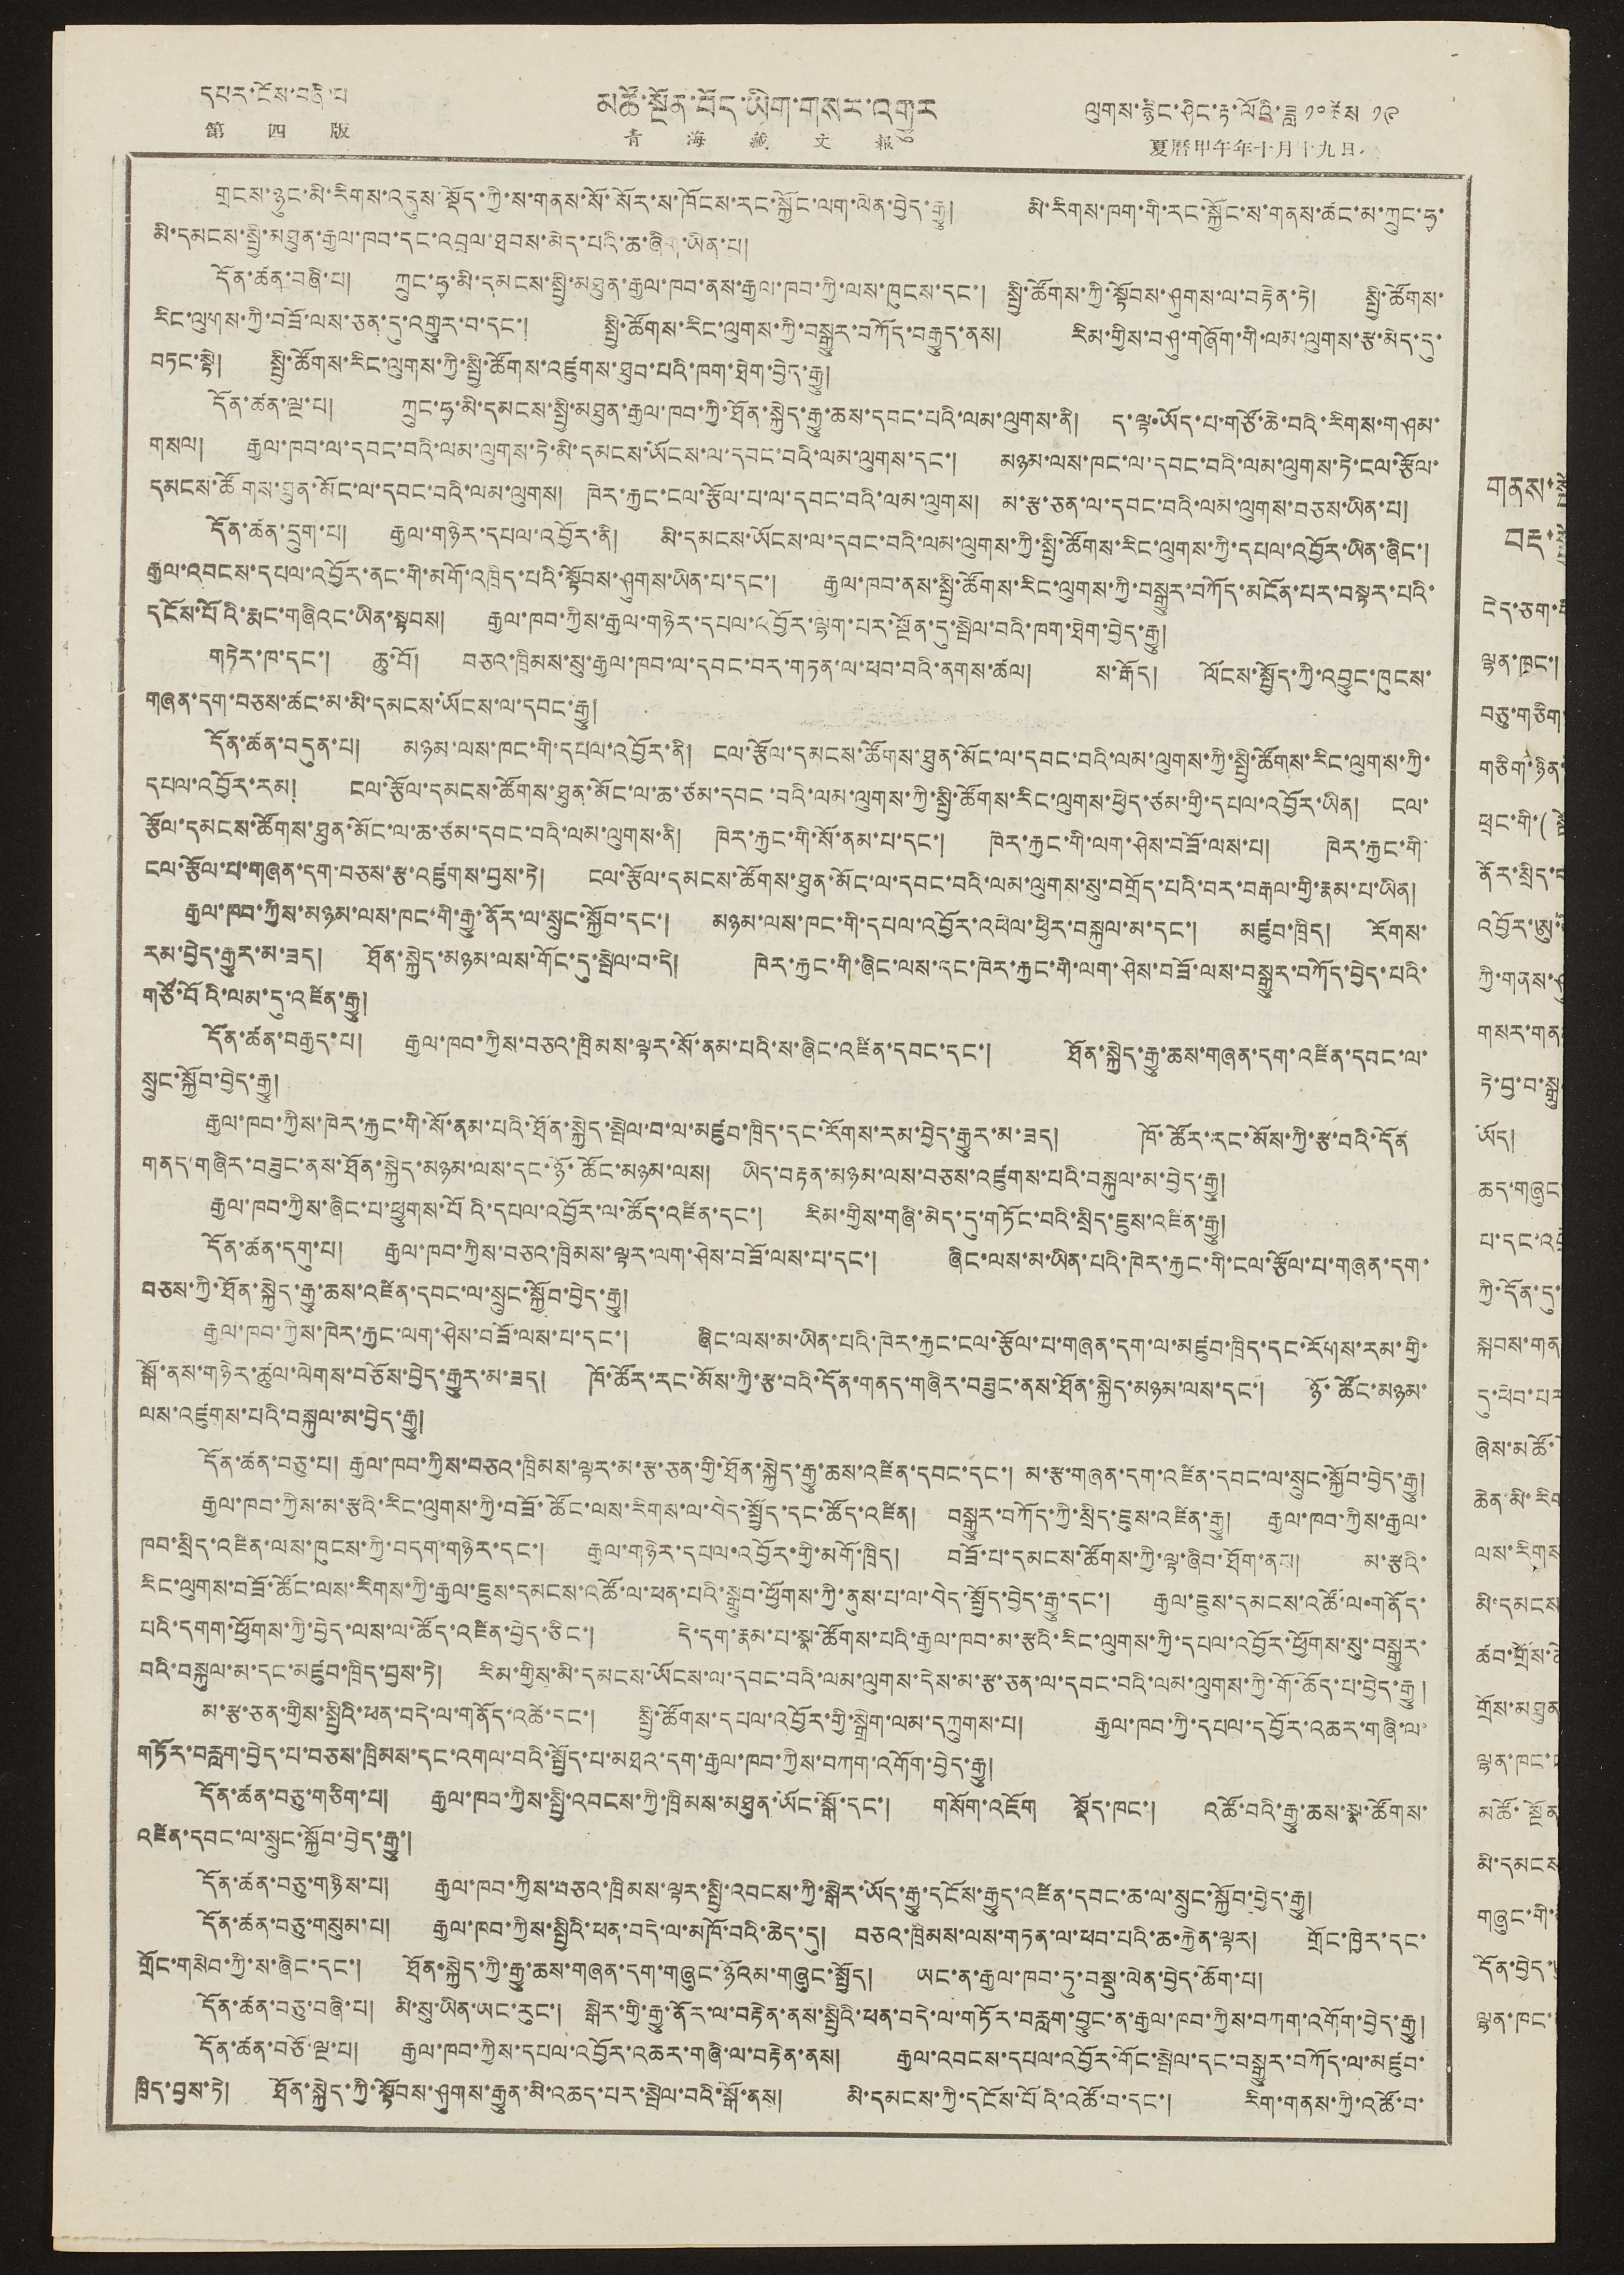དཔར་ངོས་བཞི་པ མཚོ་སྔོན་བོད་ཡིག་གསར་འགྱུར ལུགས་རྙིང་ཤིང་རྟ་ལོའི་ཟླ ༡༠ཚེས ༡༩
第 四 版 青 海 藏 文 報 夏曆甲午年十月十九日
གྲངས་ཉུང་མི་རིགས་འདུས་སྡོད་ཀྱི་ས་གནས་སོ་སོར་ས་ཁོངས་རང་སྐྱོང་ལག་ལེན་བྱེད་རྒྱུ། མི་རིགས་ཁག་གི་རང་སྐྱོང་ས་གནས་ཚང་མ་ཀྲུང་ཧྭ་
མི་དམངས་སྤྱི་མཐུན་རྒྱལ་ཁབ་དང་འབྲལ་ཐབས་མེད་པའི་ཆ་ཞིག་ཡིན་པ།
དོན་ཚན་བཞི་པ། ཀྲུང་ཧྭ་མི་དམངས་སྤྱི་མཐུན་རྒྱལ་ཁབ་ནས་རྒྱལ་ཁབ་ཀྱི་ལས་ཁུངས་དང་། སྤྱི་ཚོགས་ཀྱི་སྟོབས་ཤུགས་ལ་བརྟེན་ཏེ། སྤྱི་ཚོགས་
རིང་ལུགས་ཀྱི་བཟོ་ལས་ཅན་དུ་འགྱུར་བ་དང་། སྤྱི་ཚོགས་རིང་ལུགས་ཀྱི་བསྒྱུར་བཀོད་བརྒྱུད་ནས། རིམ་གྱིས་བཤུ་གཞོག་གི་ལམ་ལུགས་རྩ་མེད་དུ་
བཏང་སྟེ། སྤྱི་ཚོགས་རིང་ལུགས་ཀྱི་སྤྱི་ཚོགས་འཛུགས་ཐུབ་པའི་ཁག་ཐེག་བྱེད་རྒྱུ།
དོན་ཚན་ལྔ་པ། ཀྲུང་ཧྭ་མི་དམངས་སྤྱི་མཐུན་རྒྱལ་ཁབ་ཀྱི་ཐོན་སྐྱེད་རྒྱུ་ཆས་དབང་པའི་ལམ་ལུགས་ནི། ད་ལྟ་ཡོད་པ་གཙོ་ཆེ་བའི་རིགས་གཤམ་
གསལ། རྒྱལ་ཁབ་ལ་དབང་བའི་ལམ་ལུགས་ཏེ་མི་དམངས་ཡོངས་ལ་དབང་བའི་ལམ་ལུགས་དང་། མཉམ་ལས་ཁང་ལ་དབང་བའི་ལམ་ལུགས་ཏེ་ངལ་རྩོལ་
དམངས་ཚོགས་ཐུན་མོང་ལ་དབང་བའི་ལམ་ལུགས། ཁེར་རྐྱང་ངལ་རྩོལ་པ་ལ་དབང་བའི་ལམ་ལུགས། མ་རྩ་ཅན་ལ་དབང་བའི་ལམ་ལུགས་བཅས་ཡིན་པ།
དོན་ཚན་དྲུག་པ། རྒྱལ་གཉེར་དཔལ་འབྱོར་ནི། མི་དམངས་ཡོངས་ལ་དབང་བའི་ལམ་ལུགས་ཀྱི་སྤྱི་ཚོགས་རིང་ལུགས་ཀྱི་དཔལ་འབྱོར་ཡིན་ཞིང་།
རྒྱལ་འབངས་དཔལ་འབྱོར་ནང་གི་མགོ་འཁྲིད་པའི་སྟོབས་ཤུགས་ཡིན་པ་དང་། རྒྱལ་ཁབ་ནས་སྤྱི་ཚོགས་རིང་ལུགས་ཀྱི་བསྒྱུར་བཀོད་མངོན་པར་བསྟར་པའི་
དངོས་པོའི་རྨང་གཞིའང་ཡིན་སྟབས། རྒྱལ་ཁབ་ཀྱིས་རྒྱལ་གཉེར་དཔལ་འབྱོར་ལྷག་པར་སྔོན་དུ་སྤེལ་བའི་ཁག་ཐེག་བྱེད་རྒྱུ།
གཏེར་ཁ་དང་། ཆུ་བོ། བཅའ་ཁྲིམས་སུ་རྒྱལ་ཁབ་ལ་དབང་བར་གཏན་ལ་ཕབ་བའི་ནགས་ཚལ། ས་རྒོད། ལོངས་སྤྱོད་ཀྱི་འབྱུང་ཁུངས་
གཞན་དག་བཅས་ཚང་མ་མི་དམངས་ཡོངས་ལ་དབང་རྒྱུ།
དོན་ཚན་བདུན་པ། མཉམ་ལས་ཁང་གི་དཔལ་འབྱོར་ནི། ངལ་རྩོལ་དམངས་ཚོགས་ཐུན་མོང་ལ་དབངས་བའི་ལམ་ལུགས་ཀྱི་སྤྱི་ཚོགས་རིང་ལུགས་ཀྱི་
དཔལ་འབྱོར་རམ། ངལ་རྩོལ་དམངས་ཚོགས་ཐུན་མོང་ལ་ཆ་ཙམ་དབང་བའི་ལམ་ལུགས་ཀྱི་སྤྱི་ཚོགས་རིང་ལུགས་ཕྱེད་ཙམ་གྱི་དཔལ་འབྱོར་ཡིན། ངལ་
རྩོལ་དམངས་ཚོགས་ཐུན་མོང་ལ་ཆ་ཙམ་དབང་བའི་ལམ་ལུགས་ནི། ཁེར་རྐྱང་གི་སོ་ནམ་པ་དང་། ཁེར་རྐྱང་གི་ལག་ཤེས་བཟོ་ལས་པ། ཁེར་རྐྱང་གི་
ངལ་རྩོལ་པ་གཞན་དག་བཅས་རྩ་འཛུགས་བྱས་ཏེ། ངལ་རྩོལ་དམངས་ཚོགས་ཐུན་མོང་ལ་དབང་བའི་ལམ་ལུགས་སུ་བགྲོད་པའི་བར་བརྒལ་གྱི་རྣམ་པ་ཡིན།
རྒྱལ་ཁབ་ཀྱིས་མཉམ་ལས་ཁང་གི་རྒྱུ་ནོར་ལ་སྲུང་སྐྱོབ་དང་། མཉམ་ལས་ཁང་གི་དཔལ་འབྱོར་འཕེལ་ཕྱིར་བསྐུལ་མ་དང་། མཛུབ་ཁྲིད། རོགས་
རམ་བྱེད་རྒྱུར་མ་ཟད། ཐོན་སྐྱེད་མཉམ་ལས་གོང་དུ་སྤེལ་བ་དེ། ཁེར་རྐྱང་གི་ཞིང་ལས་དང་ཁེར་རྐྱང་གི་ལག་ཤེས་བཟོ་ལས་བསྒྱུར་བཀོད་བྱེད་པའི་
གཙོ་བོའི་ལམ་དུ་འཛིན་རྒྱུ།
དོན་ཚན་བརྒྱད་པ། རྒྱལ་ཁབ་ཀྱིས་བཅའ་ཁྲིམས་ལྟར་སོ་ནམ་པའི་ས་ཞིང་འཛིན་དབང་དང་། ཐོན་སྐྱེད་རྒྱུ་ཆས་གཞན་དག་འཛིན་དབང་ལ་
སྲུང་སྐྱོབ་བྱེད་རྒྱུ།
རྒྱལ་ཁབ་ཀྱིས་ཁེར་རྐྱང་གི་སོ་ནམ་པའི་ཐོན་སྐྱེད་སྤེལ་བ་ལ་མཛུབ་ཁྲིད་དང་རོགས་རམ་བྱེད་རྒྱུར་མ་ཟད། ཁོ་ཚོར་རང་མོས་ཀྱི་རྩ་བའི་དོན
གནད་གཞིར་བཟུང་ནས་ཐོན་སྐྱེད་མཉམ་ལས་དང་ཉོ་ཚོང་མཉམ་ལས། ཡིད་བརྟན་མཉམ་ལས་བཅས་འཛུགས་པའི་བསྐུལ་མ་བྱེད་རྒྱུ།
རྒྱལ་ཁབ་ཀྱིས་ཞིང་པ་ཕྱུགས་པོའི་དཔལ་འབྱོར་ལ་ཚོད་འཛིན་དང་། རིམ་གྱིས་གཞི་མེད་དུ་གཏོང་བའི་སྲིད་ཇུས་འཛིན་རྒྱུ།
དོན་ཚན་དགུ་པ། རྒྱལ་ཁབ་ཀྱིས་བཅའ་ཁྲིམས་ལྟར་ལག་ཤེས་བཟོ་ལས་པ་དང་། ཞིང་ལས་མ་ཡིན་པའི་ཁེར་རྐྱང་གི་ངལ་རྩོལ་པ་གཞན་དག་
བཅས་ཀྱི་ཐོན་སྐྱེད་རྒྱུ་ཆས་འཛིན་དབང་ལ་སྲུང་སྐྱོབ་བྱེད་རྒྱུ།
རྒྱལ་ཁབ་ཀྱིས་ཁེར་རྐྱང་ལག་ཤེས་བཟོ་ལས་པ་དང་། ཞིང་ལས་མ་ཡིན་པའི་ཁེར་རྐྱང་ངལ་རྩོལ་པ་གཞན་དག་ལ་མཛུབ་ཁྲིད་དང་རོགས་རམ་གྱི་
སྒོ་ནས་གཉེར་ཚུལ་ལེགས་བཅོས་བྱེད་རྒྱུར་མ་ཟད། ཁོ་ཚོར་རང་མོས་ཀྱི་རྩ་བའི་དོན་གནད་གཞིར་བཟུང་ནས་ཐོན་སྐྱེད་མཉམ་ལས་དང་། ཉོ་ཚོང་མཉམ་
ལས་འཛུགས་པའི་བསྐུལ་མ་བྱེད་རྒྱུ།
དོན་ཚན་བཅུ་པ། རྒྱལ་ཁབ་ཀྱིས་བཅའ་ཁྲིམས་ལྟར་མ་རྩ་ཅན་གྱི་ཐོན་སྐྱེད་རྒྱུ་ཆས་འཛིན་དབང་དང་། མ་རྩ་གཞན་དག་འཛིན་དབང་ལ་སྲུང་སྐྱོབ་བྱེད་རྒྱུ།
རྒྱལ་ཁབ་ཀྱིས་མ་རྩའི་རིང་ལུགས་ཀྱི་བཟོ་ཚོང་ལས་རིགས་ལ་བེད་སྤྱོད་དང་ཚོད་འཛིན། བསྒྱུར་བཀོད་ཀྱི་སྲིད་ཇུས་འཛིན་རྒྱུ། རྒྱལ་ཁབ་ཀྱིས་རྒྱལ་
ཁབ་སྲིད་འཛིན་ལས་ཁུངས་ཀྱི་བདག་གཉེར་དང་། རྒྱལ་གཉེར་དཔལ་འབྱོར་གྱི་མགོ་ཁྲིད། བཟོ་པ་དམངས་ཚོགས་ཀྱི་ལྟ་ཞིབ་ཐོག་ནས། མ་རྩའི་
རིང་ལུགས་བཟོ་ཚོང་ལས་རིགས་ཀྱི་རྒྱལ་ཇུས་དམངས་འཚོ་ལ་ཕན་པའི་སྒྲུབ་ཕྱོགས་ཀྱི་ནུས་པ་ལ་བེད་སྤྱོད་བྱེད་རྒྱུ་དང་། རྒྱལ་ཇུས་དམངས་འཚོ་ལ་གནོད་
པའི་དགག་ཕྱོགས་ཀྱི་བྱེད་ལས་ལ་ཚོད་འཛིན་བྱེད་ཅིང་། དེ་དག་རྣམ་པ་སྣ་ཚོགས་པའི་རྒྱལ་ཁབ་མ་རྩིའ་རིང་ལུགས་ཀྱི་དཔལ་འབྱོར་ཕྱོགས་སུ་བསྒྱུར་
བའི་བསྐུལ་མ་དང་མཛུབ་ཁྲིད་བྱས་ཏེ། རིམ་གྱིས་མི་དམངས་ཡོངས་ལ་དབང་བའི་ལམ་ལུགས་དེས་མ་རྩ་ཅན་ལ་དབང་བའི་ལམ་ལུགས་ཀྱི་གོ་ཆོད་པ་བྱེད་རྒྱུ།
མ་རྩ་ཅན་གྱིས་སྤྱིའི་ཕན་བདེ་ལ་གནོད་འཚོ་དང་། སྤྱི་ཚོགས་དཔལ་འབྱོར་གྱི་སྒྲིག་ལམ་དཀྲུགས་པ། རྒྱལ་ཁབ་ཀྱི་དཔལ་དབྱོར་འཆར་གཞི་ལ་
གཏོར་བརླག་བྱེད་པ་བཅས་ཁྲིམས་དང་འགལ་བའི་སྤྱོད་པ་མཐའ་དག་རྒྱལ་ཁབ་ཀྱིས་བཀག་འགོག་བྱེད་རྒྱུ།
དོན་ཚན་བཅུ་གཅིག་པ། རྒྱལ་ཁབ་ཀྱིས་སྤྱི་འབངས་ཀྱི་ཁྲིམས་མཐུན་ཡོང་སྒོ་དང་། གསོག་འཇོག སྡོད་ཁང་། འཚོ་བའི་རྒྱུ་ཆས་སྣ་ཚོགས་
འཛིན་དབང་ལ་སྲུང་སྐྱོབ་བྱེད་རྒྱུ་།
དོན་ཚན་བཅུ་གཉིས་པ། རྒྱལ་ཁབ་ཀྱིས་བཅའ་ཁྲིམས་ལྟར་སྤྱི་འབངས་ཀྱི་སྒེར་ཡོད་རྒྱུ་དངོས་རྒྱུད་འཛིན་དབང་ཆ་ལ་སྲུང་སྐྱོབ་བྱེད་རྒྱུ།
དོན་ཚན་བཅུ་གསུམ་པ། རྒྱལ་ཁབ་ཀྱིས་སྤྱིའི་ཕན་བདེ་ལ་མཁོ་བའི་ཆེད་དུ། བཅའ་ཁྲིམས་ལས་གཏན་ལ་ཕབ་པའི་ཆ་རྐྱེན་ལྟར། གྲོང་ཁྱེར་དང་
གྲོང་གསེབ་ཀྱི་ས་ཞིང་དང་། ཐོན་སྐྱེད་ཀྱི་རྒྱུ་ཆས་གཞན་དག་གཞུང་ཉོའམ་གཞུང་སྤྱོད། ཡང་ན་རྒྱལ་ཁབ་ཏུ་བསྡུ་ལེན་བྱེད་ཆོག་པ།
དོན་ཚན་བཅུ་བཞི་པ། མི་སུ་ཡིན་ཡང་རུང་། སྒེར་གྱི་རྒྱུ་ནོར་ལ་བརྟེན་ནས་སྤྱིའི་ཕན་བདེ་ལ་གཏོར་བརླག་བྱུང་ན་རྒྱལ་ཁབ་ཀྱིས་བཀག་འགོག་བྱེད་རྒྱུ།
དོན་ཚན་བཅོ་ལྔ་པ། རྒྱལ་ཁབ་ཀྱིས་དཔལ་འབྱོར་འཆར་གཞི་ལ་བརྟེན་ནས། རྒྱལ་འབངས་དཔལ་འབྱོར་གོང་སྤེལ་དང་བསྒྱུར་བཀོད་ལ་མཛུབ་
ཁྲིད་བྱས་ཏེ། ཐོན་སྐྱེད་ཀྱི་སྟོབས་ཤུགས་རྒྱུན་མི་འཆད་པར་སྤེལ་བའི་སྒོ་ནས། མི་དམངས་ཀྱི་དངོས་པོའི་འཚོ་བ་དང་། རིག་གནས་ཀྱི་འཚོ་བ་
གནས་སྤོ
བརྡ་སྦྱོར
ངེད་ཅག་
ལྷན་ཁང་།
བཅུ་གཅིག་
གཅིག་ཉིན་
ཕྲང་གི་(སྤོ
ནོར་སྲིད་ག
འབྱོར་ཨུ་
ཀྱི་གནས་ཤུ
གསར་གན
ཏེ་བྱ་བ་སྒྲུ
ཡོད།
ཆད་གཞུང་
པ་དང་འབྲེ
ཀྱི་དོན་དུ་
སྐབས་གན
དུ་ཕེབ་པར
ཞེས་མཚོ་
ཆེན་མི་རིག
ལས་རིགས་
མི་དམངས
ཚབ་གྲོས་
གྲོས་མཐུན
ལྷན་ཁང་
མཚོ་སྔོན
མི་དམངས
གཞུང་གི་
དོན་བྱེད་
ལྷན་ཁང་
